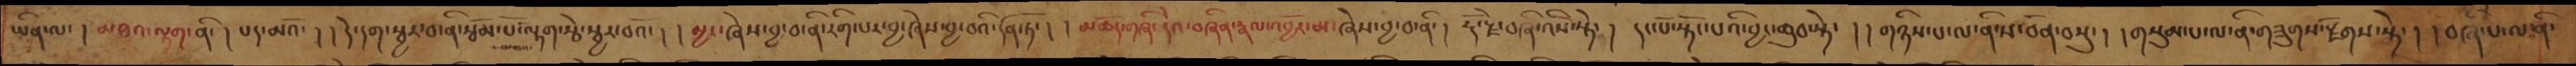ཡིན་ལ་། མཐའ་ལྟག་ནི་། པད་མའོ་། །དེ་དག་སྦྱར་བ་ན་རྩོམ་པོ་ལྟག་རྩེ་སྦྱར་བའོ་། །མྱང་ཞེས་བྱ་བ་ནི་རིག་པར་བྱ་ཞེས་བྱ་བའི་དོན་ཏོ་། །མཆོད་གཞི་དེའ་བཞིན་རྣལ་འབྱོར་མ་ཞེས་བྱ་བ་ནི་། རྡོ་རྗེ་བཞི་འིས་སྟེ་། །དང་པོ་སྟོང་པའི་བྱང་ཆུབ་སྟེ་། །གཉིས་པ་ལ་ནི་ས་བོན་བསྡུ་། །གསུམ་པ་ལ་ནི་གཟུགས་རྫོགས་སྟེ་། །བཞི་པ་ལ་ནི་
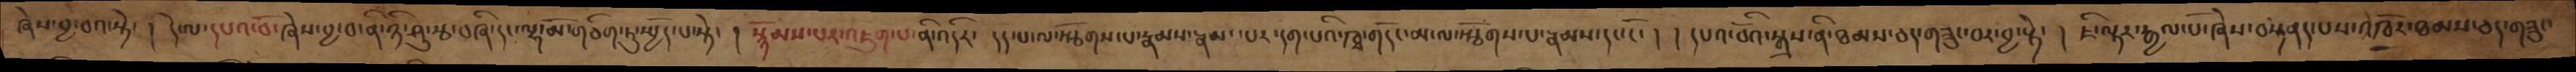ཞེས་བྱ་བའ་སྟེ་། དེ་ལ་དཔའ་བོ་ཞེས་བྱ་བ་ནི་ཉི་ཤུ་རྩ་བཞི་དང་ལྷ་མོ་གཅིག་ཏུ་སྤྱོད་པ་སྟེ་། སྙོམས་པར་འཇུག་པ་ནི་འདིར་  དད་པ་ལ་སྩོགས་པ་རྣམས་རྣམ་པར་དག་པའི་ཁྭ་གདོང་མ་ལ་སྩོགས་པ་རྣམས་དང་ངོ་། །དཔའ་བོའི་སྒྲས་ནི་ཐམས་ཅད་གཟུང་བར་བྱ་སྟེ་། ཇི་ལྟར་རྒྱལ་པོ་ཞེས་བསྟནད་པས་འཁོར་ཐམས་ཅད་གཟུང་
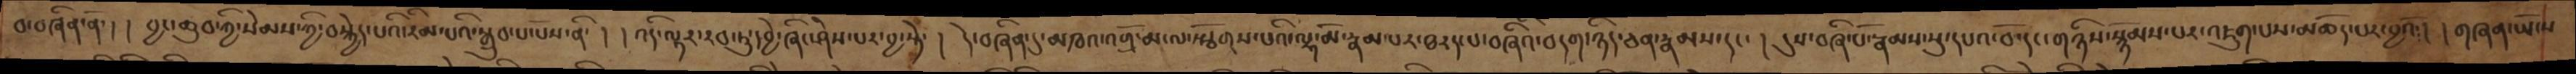བ་བཞིན་ནོ་། །བྱང་ཆུབ་ཀྱི་སེམས་ཀྱི་བསྐྱེད་པའི་རིམ་པའི་སྒྲུབ་པ་པོས་ནི་། །འདི་ལྟར་རབ་ཏུ་དབྱེ་ཞིང་ཤེས་པར་བྱ་སྟེ་། དེ་བཞིན་དུ་མཁའ་འགྲོ་མ་ལ་སྩོགས་པའི་ལྷ་མོ་རྣམ་པར་ཐརད་པ་བཞིའི་བདག་ཉིད་ཅན་རྣམས་དང་། དུས་བཞི་པོ་རྣམས་སུ་དཔའ་བོ་དང་གཉིས་སྙོམས་པར་འཇུག་པས་མཆོད་པར་བྱའོ། །གཞན་ཡོངས
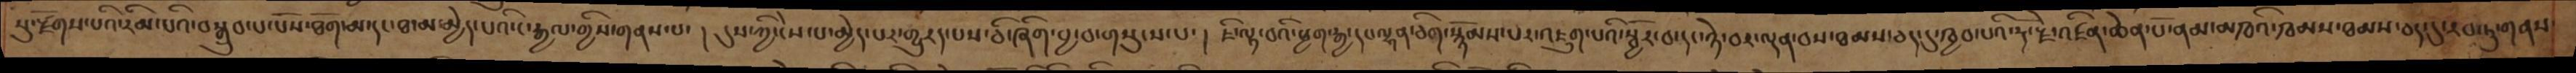སུ་རྫོགས་པའི་རིམ་པའི་བསྒྲུབ་པ་པོས་ཐོག་མ་དང་ཐ་མ་མྱེད་པའི་ང་རྒྱལ་གྱིས་གནས་པ་། དུས་ཀྱི་ངེས་པ་མྱེད་པར་གྱུརད་པས་ཅི་ཞིག་བྱ་བ་གསུངས་པ་། ཇི་ལྟ་བའི་ཕྱག་རྒྱ་དང་ལྷན་ཅིག་སྙོམས་པར་འཇུག་པའི་སྦྱོར་བ་དང་ཉེ་བར་ལྡན་བས་ཐམས་ཅད་དུ་ཁྱབ་པའི་རྡོ་རྗེ་འཛིན་ཆེན་པོ་ནམ་མཁའི་ཁམས་ཐམས་ཅད་དུ་རབ་ཏུ་གནས་
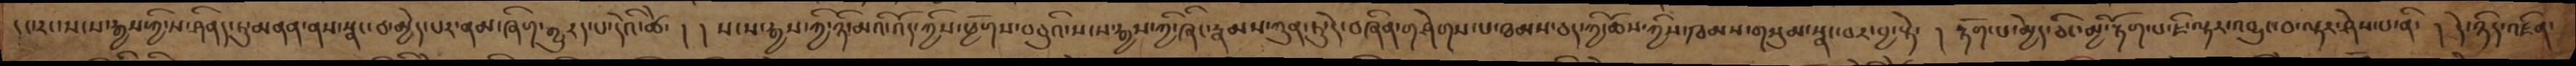།ང་རང་སངས་རྒྱས་ཀྱི་ས་ཤིནད་དུ་མནན་ནས་སྣང་བ་མྱེད་པར་ནམ་ཞིག་གྱུརད་པ་དེའི་ཚེ་། །སངས་རྒྱས་ཀྱི་ཉི་མའི་འོད་ཀྱིས་ཕྱོགས་བཅུའི་སངས་རྒྱས་ཀྱི་ཞིང་རྣམས་ཀུན་ཏུ་དེ་བཞིན་གཤེགས་པ་ཐམས་ཅད་ཀྱི་ཆོས་ཀྱིས་ཁམས་གསུམ་སྣང་བར་བྱ་སྟེ་། རྟོག་པ་མྱེད་ཅིང་མྱི་རྟོག་པ་ཇི་ལྟར་འབྱུང་བ་ལྟར་ཤེས་པ་ནི་ །དེ་ཉིད་འཛིན་
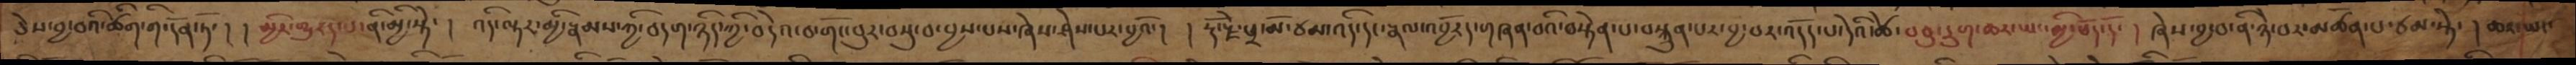ཅེས་བྱ་བའི་ཚིག་གི་དོན་ཏོ་། །མྱིར་གྱུརད་པ་ནི་མྱི་སྟེ་། འདི་ལྟར་མྱི་རྣམས་ཀྱི་བདག་ཉིད་ཀྱི་བདེའ་བ་གོང་བུར་བསུ་བ་བྱས་པས་ཞེས་ཤེས་པར་བྱའོ་། །རྡོ་རྗེ་ཕྲ་མོ་ཙམ་འདི་དང་རྣལ་འབྱོརད་གཞན་བའི་བསྟེན་པ་བསྐྲུན་པར་བྱ་བར་འདོད་པ་དེའི་ཚེ་བཅུ་དྲུག་ཆར་ཡང་མྱི་ཕོད་དོ་། ཞེས་བྱ་བ་ནི་ཉེ་བར་མཚོན་པ་ཙམ་སྟེ། ཆར་ཡང་
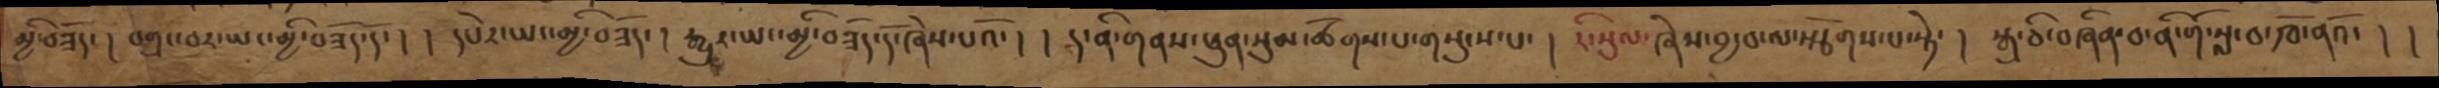མྱི་བཟོད་། བགྲང་བར་ཡང་མྱི་བཟོད་དོ་། །དཔེར་ཡང་མྱི་བཟོད་། རྒྱུར་ཡང་མྱི་བཟོད་དོ་ཞེས་པའོ་། །ད་ནི་གནས་ཕུན་སུམ་ཚོགས་པ་གསུངས་པ་། རི་སུལ་ཞེས་བྱ་བ་ལ་སྩོགས་པ་སྟེ་། སྒྲ་ཅི་བཞིན་བ་ནི་གོ་སླ་བ་ཁོ་ནའོ་། །
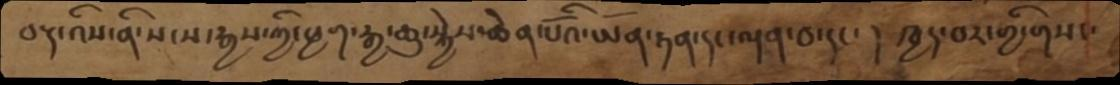བརྡ་འིས་ནི་སངས་རྒྱས་ཀྱི་ཕྱག་རྒྱ་ཆུ་སྐྱེས་ཆེན་པོའི་ཡོན་ཏན་དང་ལྡན་བ་དང་། ཁྱད་བར་གྱི་གསང་
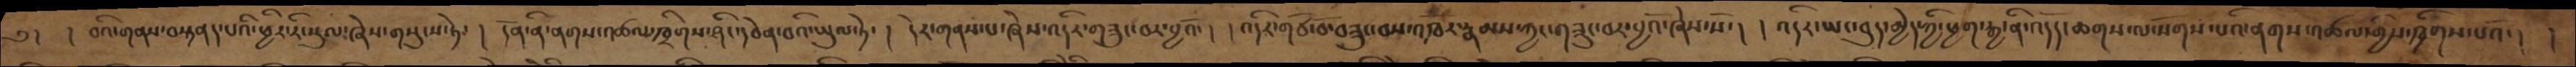༄། །བའི་གནས་བསྟནད་པའི་ཕྱིར་རི་སུལ་ཞེས་གསུངས་ཏེ་། དོན་ནི་ནགས་འཚལ་ཁྲིགས་ཤིང་དབེན་པའི་ཡུལ་ཏེ་། དེར་གནས་པ་ཞེས་འདིར་གཟུང་བར་བྱའོ་། །འདིར་གཙོ་བོ་བཟུང་བས་འཁོར་རྣམས་ཀྱང་གཟུང་བར་བྱའོ་ཞེས་སོ་། །འདིར་ཡང་བུད་མྱེད་ཀྱི་ཕྱག་རྒྱ་ནི་འདོད་ཆགས་ལ་སོགས་པའི་ནགས་འཚལ་གྱིས་ཁྲིགས་པའོ་། །
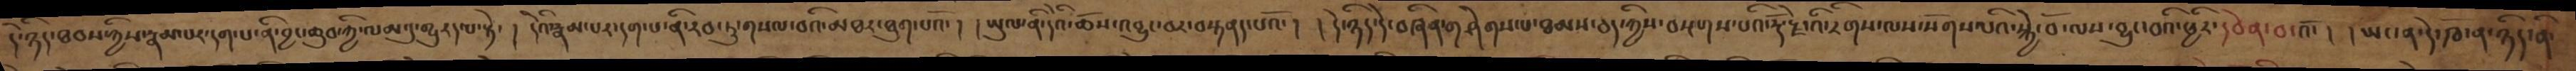དེ་ཉིད་ཐབས་ཀྱིས་རྣམ་པར་དག་པ་ནི་བྱང་ཆུབ་ཀྱི་ལམ་དུ་གྱུརད་པ་སྟེ་། དེའི་རྣམ་པར་དག་པ་ནི་རབ་ཏུ་གསལ་བའི་མཐར་ཐུག་པའོ་། །ཡུལ་ནི་དེའི་ཆོས་འབྱུང་བར་བསྟནད་པའོ་། །དེ་ཉིད་དེ་བཞིན་གཤེགས་པ་ཐམས་ཅད་ཀྱིས་བསྔགས་པའི་རྡོ་རྗེ་འི་རིགས་ལས་སོགས་པའི་སྐྱེ་བོ་ལས་བྱུང་བའི་ཕྱིར་དབེན་བ་འོ་། །ཡང་ན་དེ་ཁོ་ན་ཉིད་ནི་
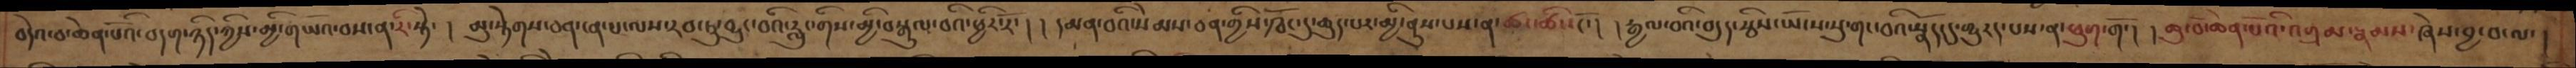བདེའ་བ་ཆེན་པོའི་བདག་ཉིད་ཀྱིས་མྱི་གཡོའ་བས་ན་རི་སྟེ་། མུ་སྟེགས་ཅན་ངན་པ་ལས་རབ་ཏུ་བྱུང་བའི་རླུང་གིས་བསྒུལ་བའི་ཕྱིར་རོ་། །དམན་བའི་སེམས་ཅན་གྱིས་ཁོང་དུ་ཆུད་པར་མྱི་ནུས་པས་ན་ཚང་ཚིང་ངོ་། །རྒྱལ་བའི་བདུད་རྩིས་ཡོངས་སུ་གང་བའི་སྣོད་དུ་གྱུརད་པས་ན་ཕུག་གོ་། །ཆུ་བོ་ཆེན་པོའི་འགྲམ་རྣམས་ཞེས་བྱ་བ་ལ་།
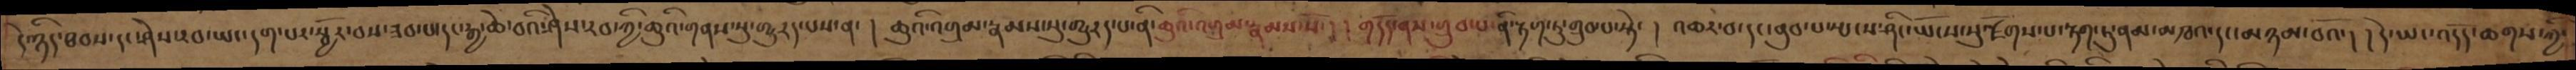དེ་ཉིད་ཐབས་དང་ཤེས་རབ་ཡང་དག་པར་སྦྱོར་བས་ཟབ་པ་དང་རྒྱ་ཆེ་བའི་ཤེས་རབ་ཀྱི་ཆུའི་གནས་སུ་གྱུརད་པས་ན་། ཆུའི་འགྲམ་རྣམས་སུ་གྱུརད་པ་ནི་ཆུའི་འགྲམ་རྣམས་སོ་། །གདོད་ནས་གྲུབ་པ་ནི་རྟག་ཏུ་གྲུབ་པ་སྟེ་། འཆར་བ་དང་ནུབ་པ་སྤངས་ཤིང་ཡོངས་སུ་རྫོགས་པ་རྟག་ཏུ་ནམ་མཁའ་དང་མཉམ་བའོ་། །དེ་ཡང་འདོད་ཆགས་ཀྱི་
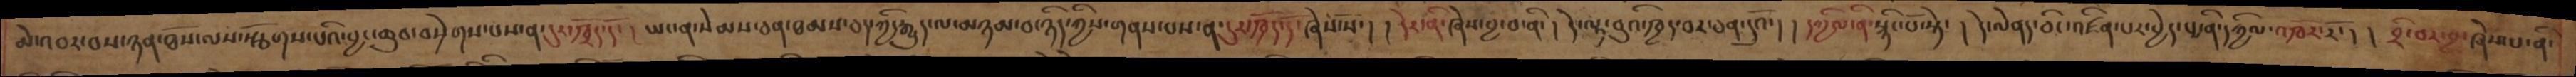མེ་འབར་བས་ཉན་ཐོས་ལས་སྩོགས་པའི་བྱང་ཆུབ་བསྲེགས་པས་ན་དུར་ཁྲོད་དོ་། ཡང་ན་སེམས་ཅན་ཐམས་ཅད་ཀྱི་རྒྱུད་ལ་མཉམ་བ་ཉིད་ཀྱིས་གནས་པས་ན་དུར་ཁྲོད་དོ་ཞེས་སོ་། །དེར་ནི་ཞེས་བྱ་བ་ནི་། དེ་ལྟ་བུའི་ཁྱད་བར་ཅན་དུའོ་། །དཀྱིལ་ནི་སྙིང་པོ་སྟེ་། དེ་ལེནད་ཅིང་འཛིན་པར་བྱེད་པ་ནི་དཀྱིལ་འཁོར་རོ། །བྲི་བར་བྱ་ཞེས་པ་ནི
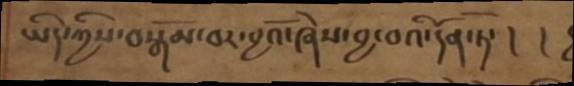ཡིད་ཀྱིས་བསྒོམ་བར་བྱའོ་ཞེས་བྱ་བའི་དོན་ཏོ་།  །
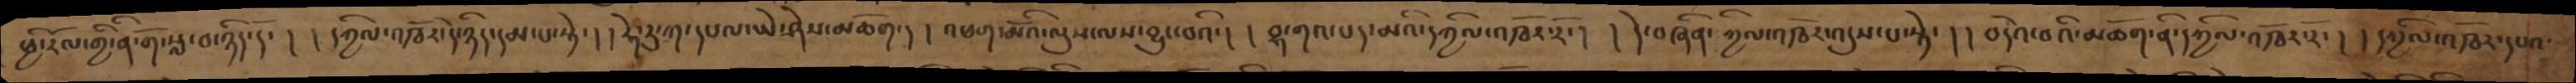ཕྱི་རོལ་གྱི་ནི་གོ་སླ་བ་ཉིད་དོ་། །དཀྱིལ་འཁོར་དེ་ཉིད་དམ་པ་སྟེ་། །ཧེ་རུ་ཀ་དཔལ་ཡེ་ཤེས་མཆོག་། །འཕག་མོའི་ལུས་ལས་བྱུང་བའི་། །བྷ་གའ་པད་མའི་དཀྱིལ་འཁོར་རོ་། །དེ་བཞིན་ཀྱིལ་འཁོར་འདུས་པ་སྟེ་། །བདེའ་བའི་མཆོག་ནི་དཀྱིལ་འཁོར་རོ་། །དཀྱིལ་འཁོར་དཔའ་
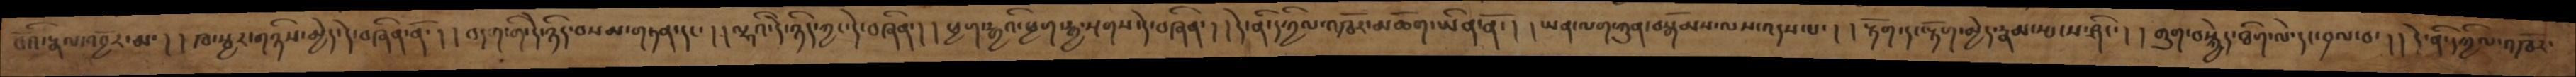བོའི་རྣལ་འབྱོར་མ་། །ཁ་སྦྱར་གཉིས་མྱེད་དེ་བཞིན་ནོ་། །བདག་གི་དེ་ཉིད་བསམ་གཏན་དང་། །ལྷའི་དེ་ཉིད་ཀྱང་དེ་བཞིན་། །ཕྱག་རྒྱའི་ཕྱག་རྒྱ་སྔགས་དེ་བཞིན་། །དེ་ནི་དཀྱིལ་འཁོར་མཆོག་ཡིན་ནོ་། །ཡན་ལག་ཀུན་བསྒོམས་ལས་འདས་པ་། །རྟོག་དང་རྟོག་མྱེད་རྣམ་སྤངས་ཤིང་། །གུག་བསྐྱེད་ཐིག་ལེ་དང་བྲལ་བ་།།དེ་ནི་དཀྱིལ་འཁོར་
